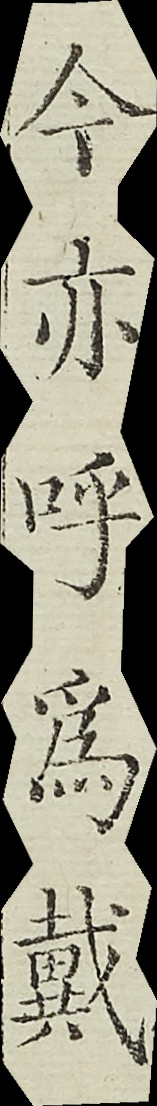今亦呼為戴
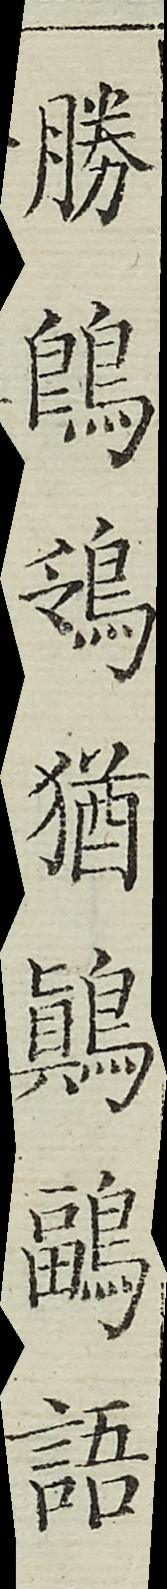勝鵖鴔猶鷆鶝語
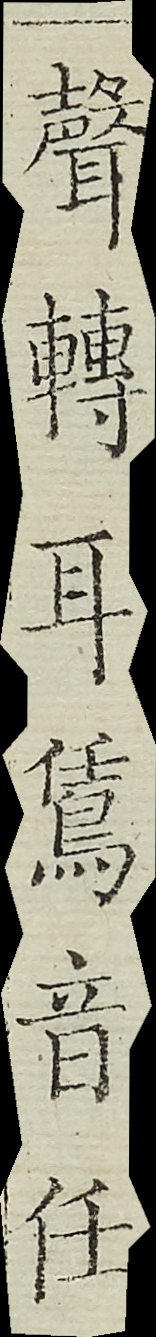聲轉耳鵀音任
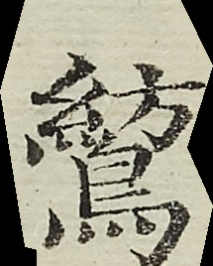鶭
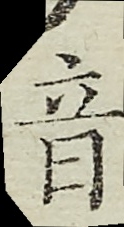音
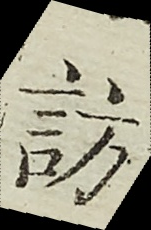訪
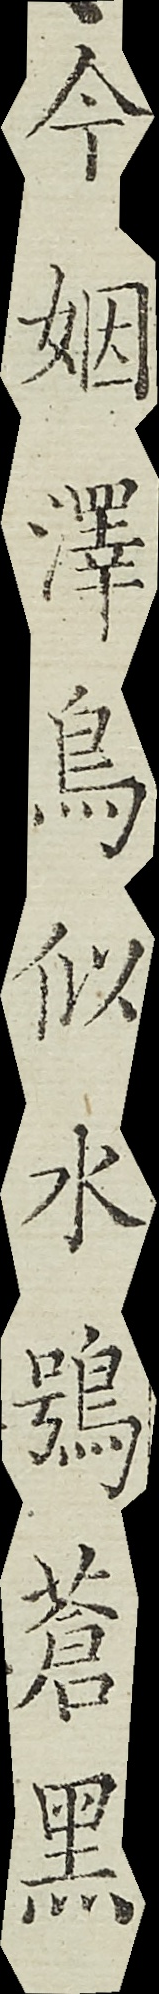今姻澤鳥似水鴞蒼黑
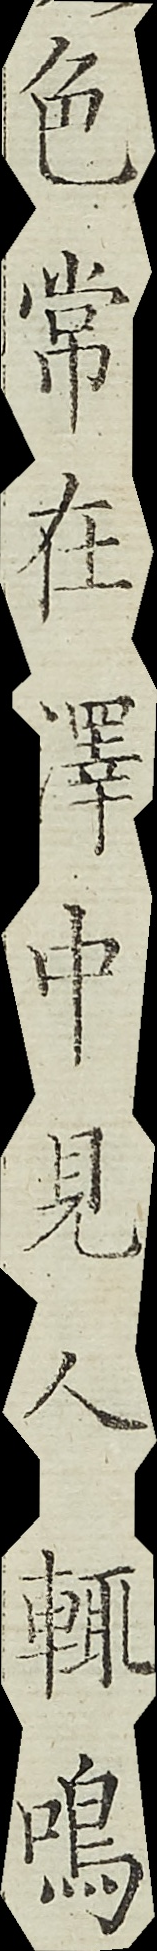色常在澤中見人輒鳴
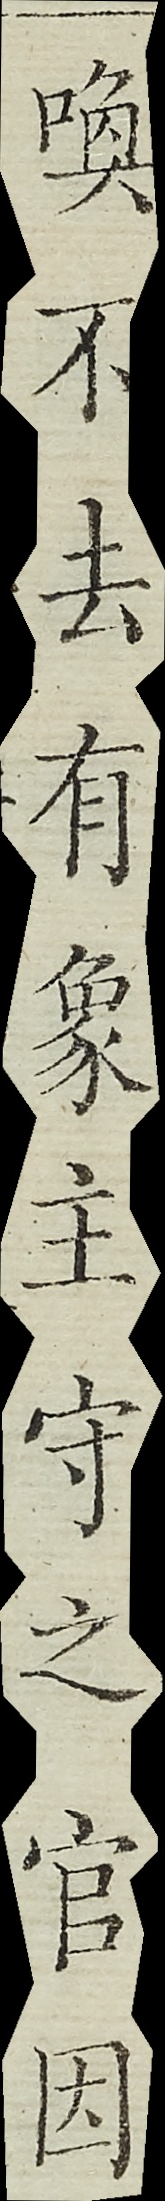喚不去有象主守之官因
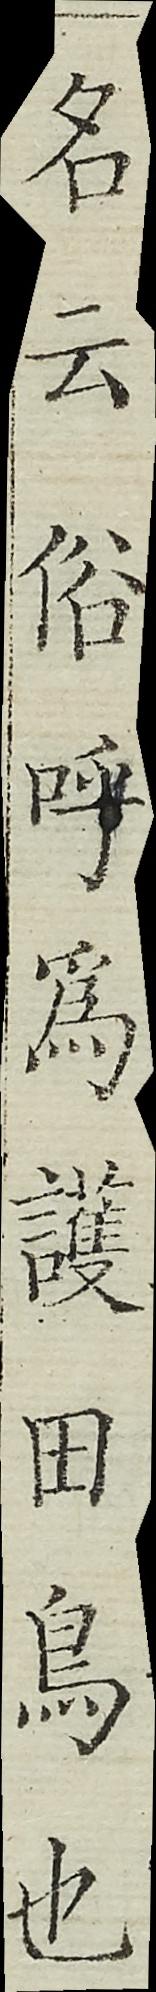名云俗呼為護田鳥也
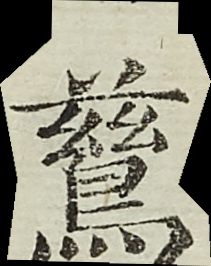鶿
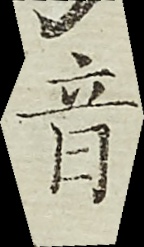音
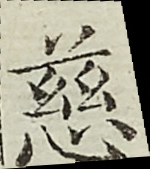慈
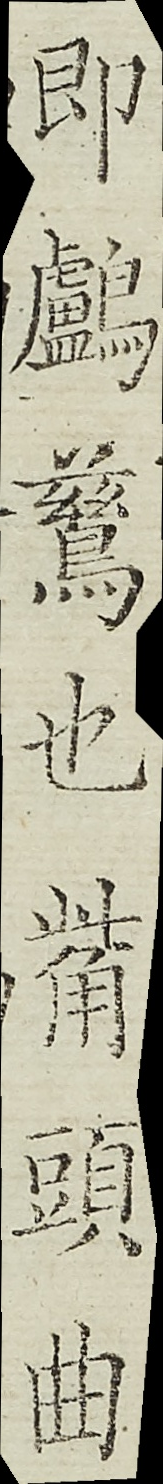即鸕鶿也觜頭曲
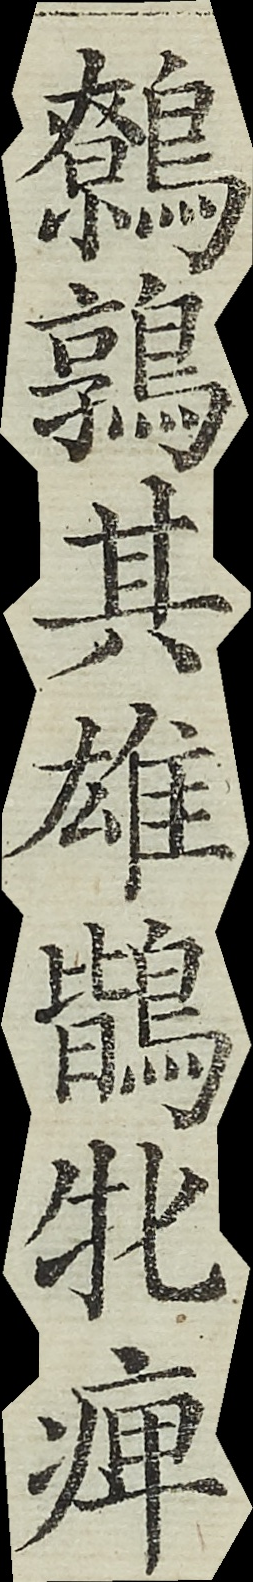鷯鶉其雄鶛牝痺
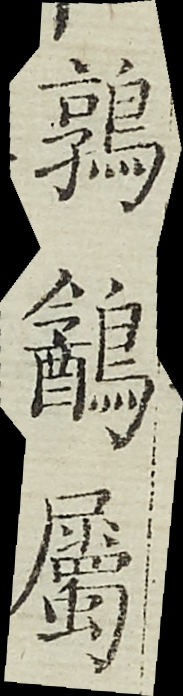鶉䳺屬
